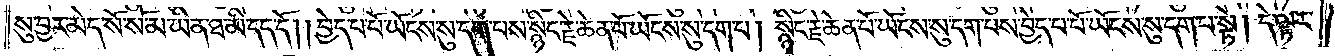སུ་བྱར་མེད་སོ་སོ་མ་ཡིན་ཐ་མི་དད་དོ། །བྱེད་པ་པོ་ཡོངས་སུ་དག་པས་སྙིང་རྗེ་ཆེན་པོ་ཡོངས་སུ་དག་པ། སྙིང་རྗེ་ཆེན་པོ་ཡོངས་སུ་དག་པས་བྱེད་པ་པོ་ཡོངས་སུ་དག་པ་སྟེ། དེ་ལྟར་
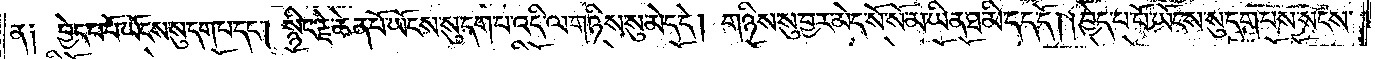ན༑ བྱེད་པ་པོ་ཡོངས་སུ་དག་པ་དང༌། སྙིང་རྗེ་ཆེན་པོ་ཡོངས་སུ་དག་པ་འདི་ལ་གཉིས་སུ་མེད་དེ། གཉིས་སུ་བྱར་མེད་སོ་སོ་མ་ཡིན་ཐ་མི་དད་དོ། །བྱེད་པ་པོ་ཡོངས་སུ་དག་པས་སངས་
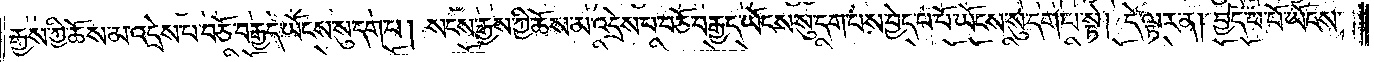རྒྱས་ཀྱི་ཆོས་མ་འདྲེས་པ་བཅོ་བརྒྱད་ཡོངས་སུ་དག་པ། སངས་རྒྱས་ཀྱི་ཆོས་མ་འདྲེས་པ་བཅོ་བརྒྱད་ཡོངས་སུ་དག་པས་བྱེད་པ་པོ་ཡོངས་སུ་དག་པ་སྟེ། དེ་ལྟར་ན། བྱེད་པ་པོ་ཡོངས་
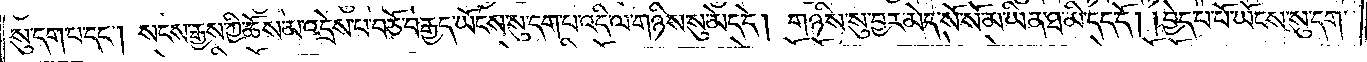སུ་དག་པ་དང༌། སངས་རྒྱས་ཀྱི་ཆོས་མ་འདྲེས་པ་བཅོ་བརྒྱད་ཡོངས་སུ་དག་པ་འདི་ལ་གཉིས་སུ་མེད་དེ། གཉིས་སུ་བྱར་མེད་སོ་སོ་མ་ཡིན་ཐ་མི་དད་དོ། །བྱེད་པ་པོ་ཡོངས་སུ་དག་
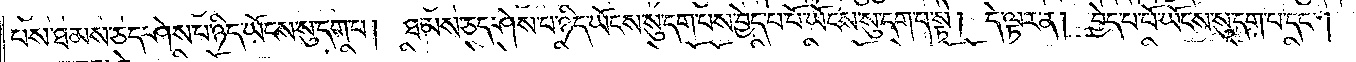པས་ཐམས་ཅད་ཤེས་པ་ཉིད་ཡོངས་སུ་དག་པ། ཐམས་ཅད་ཤེས་པ་ཉིད་ཡོངས་སུ་དག་པས་བྱེད་པ་པོ་ཡོངས་སུ་དག་པ་སྟེ། དེ་ལྟར་ན། བྱེད་པ་པོ་ཡོངས་སུ་དག་པ་དང༌།
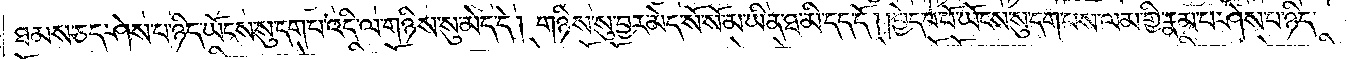ཐམས་ཅད་ཤེས་པ་ཉིད་ཡོངས་སུ་དག་པ་འདི་ལ་གཉིས་སུ་མེད་དེ། གཉིས་སུ་བྱར་མེད་སོ་སོ་མ་ཡིན་ཐ་མི་དད་དོ། །བྱེད་པ་པོ་ཡོངས་སུ་དག་པས་ལམ་གྱི་རྣམ་པ་ཤེས་པ་ཉིད་
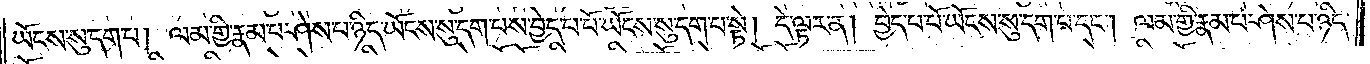ཡོངས་སུ་དག་པ། ལམ་གྱི་རྣམ་པ་ཤེས་པ་ཉིད་ཡོངས་སུ་དག་པས་བྱེད་པ་པོ་ཡོངས་སུ་དག་པ་སྟེ། དེ་ལྟར་ན། བྱེད་པ་པོ་ཡོངས་སུ་དག་པ་དང༌། ལམ་གྱི་རྣམ་པ་ཤེས་པ་ཉིད་
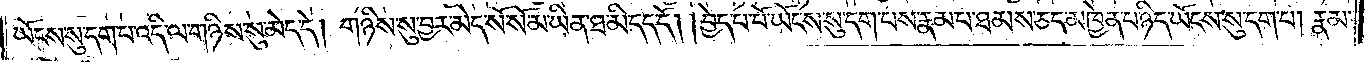ཡོངས་སུ་དག་པ་འདི་ལ་གཉིས་སུ་མེད་དེ། གཉིས་སུ་བྱར་མེད་སོ་སོ་མ་ཡིན་ཐ་མི་དད་དོ། །བྱེད་པ་པོ་ཡོངས་སུ་དག་པས་རྣམ་པ་ཐམས་ཅད་མཁྱེན་པ་ཉིད་ཡོངས་སུ་དག་པ། རྣམ་
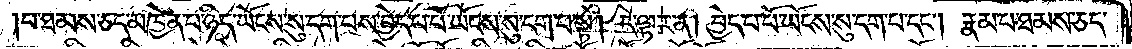པ་ཐམས་ཅད་མཁྱེན་པ་ཉིད་ཡོངས་སུ་དག་པས་བྱེད་པ་པོ་ཡོངས་སུ་དག་པ་སྟེ། དེ་ལྟར་ན། བྱེད་པ་པོ་ཡོངས་སུ་དག་པ་དང༌། རྣམ་པ་ཐམས་ཅད་
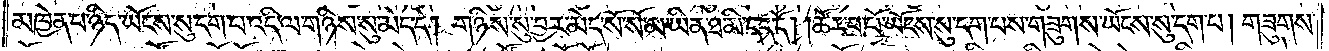མཁྱེན་པ་ཉིད་ཡོངས་སུ་དག་པ་འདི་ལ་གཉིས་སུ་མེད་དེ། གཉིས་སུ་བྱར་མེད་སོ་སོ་མ་ཡིན་ཐ་མི་དད་དོ། །ཚོར་བ་པོ་ཡོངས་སུ་དག་པས་གཟུགས་ཡོངས་སུ་དག་པ། གཟུགས་
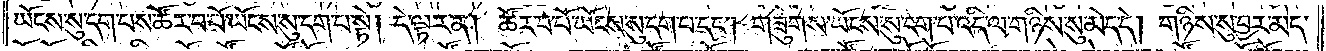ཡོངས་སུ་དག་པས་ཚོར་བ་པོ་ཡོངས་སུ་དག་པ་སྟེ། དེ་ལྟར་ན། ཚོར་བ་པོ་ཡོངས་སུ་དག་པ་དང༌། གཟུགས་ཡོངས་སུ་དག་པ་འདི་ལ་གཉིས་སུ་མེད་དེ། གཉིས་སུ་བྱར་མེད་
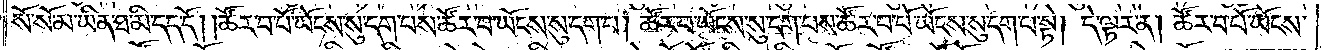སོ་སོ་མ་ཡིན་ཐ་མི་དད་དོ། །ཚོར་བ་པོ་ཡོངས་སུ་དག་པས་ཚོར་བ་ཡོངས་སུ་དག་པ། ཚོར་བ་ཡོངས་སུ་དག་པས་ཚོར་བ་པོ་ཡོངས་སུ་དག་པ་སྟེ། དེ་ལྟར་ན། ཚོར་བ་པོ་ཡོངས་
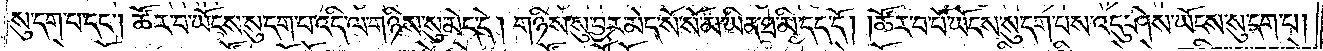སུ་དག་པ་དང༌། ཚོར་བ་ཡོངས་སུ་དག་པ་འདི་ལ་གཉིས་སུ་མེད་དེ། གཉིས་སུ་བྱར་མེད་སོ་སོ་མ་ཡིན་ཐ་མི་དད་དོ། །ཚོར་བ་པོ་ཡོངས་སུ་དག་པས་འདུ་ཤེས་ཡོངས་སུ་དག་པ།
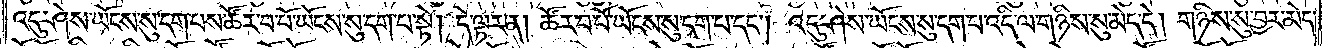འདུ་ཤེས་ཡོངས་སུ་དག་པས་ཚོར་བ་པོ་ཡོངས་སུ་དག་པ་སྟེ། དེ་ལྟར་ན། ཚོར་བ་པོ་ཡོངས་སུ་དག་པ་དང༌། འདུ་ཤེས་ཡོངས་སུ་དག་པ་འདི་ལ་གཉིས་སུ་མེད་དེ། གཉིས་སུ་བྱར་མེད་
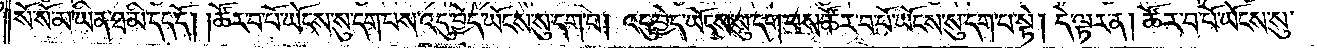སོ་སོ་མ་ཡིན་ཐ་མི་དད་དོ། །ཚོར་བ་པོ་ཡོངས་སུ་དག་པས་འདུ་བྱེད་ཡོངས་སུ་དག་པ། འདུ་བྱེད་ཡོངས་སུ་དག་པས་ཚོར་བ་པོ་ཡོངས་སུ་དག་པ་སྟེ། དེ་ལྟར་ན། ཚོར་བ་པོ་ཡོངས་སུ་
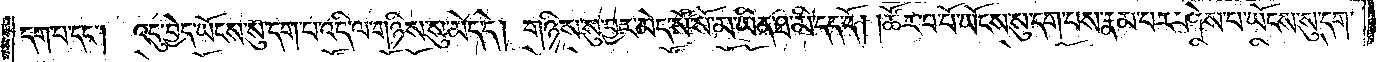དག་པ་དང༌། འདུ་བྱེད་ཡོངས་སུ་དག་པ་འདི་ལ་གཉིས་སུ་མེད་དེ། གཉིས་སུ་བྱར་མེད་སོ་སོ་མ་ཡིན་ཐ་མི་དད་དོ། །ཚོར་བ་པོ་ཡོངས་སུ་དག་པས་རྣམ་པར་ཤེས་པ་ཡོངས་སུ་དག་
